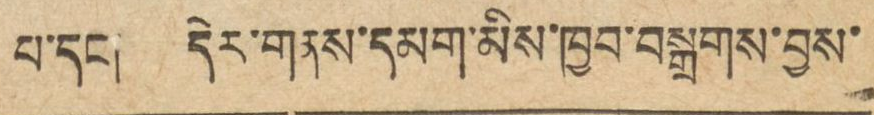པ་དང། དེར་གནས་དམག་མིས་ཁྱབ་བསྒྲགས་བྱས་
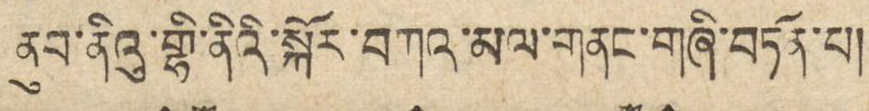ནུབ་ནིའུ་གྷི་ནིའི་སྐོར་བཀའ་མལ་གནང་གཞི་བཏོན་པ།
